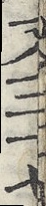文三七
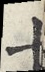七
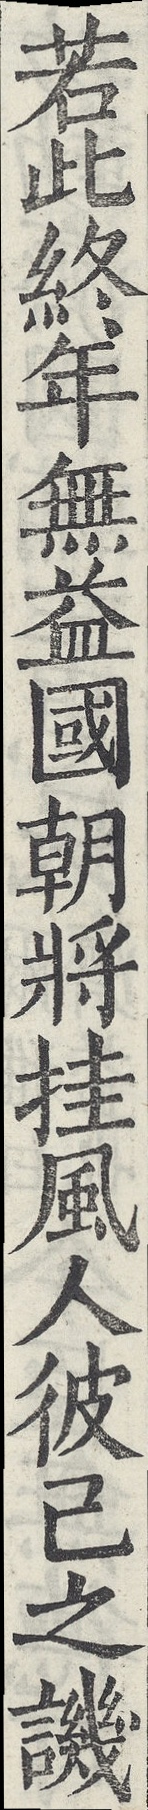若此終年無益國朝將挂風人彼己之譏
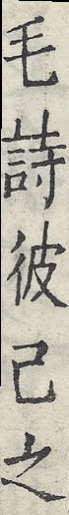毛詩彼己之
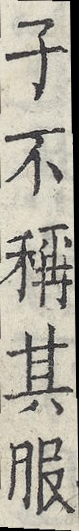子不稱其服
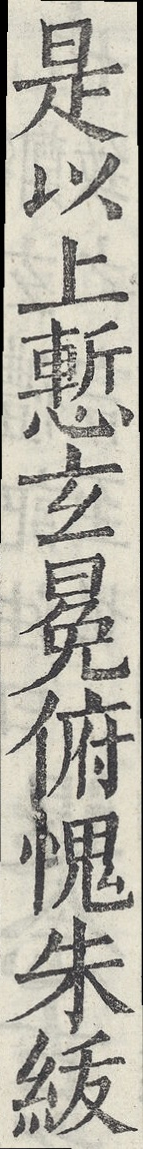是以上慙玄冕俯愧朱紱
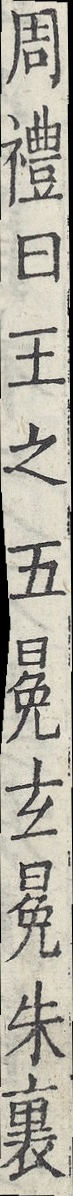周禮曰王之五冕玄冕朱裏
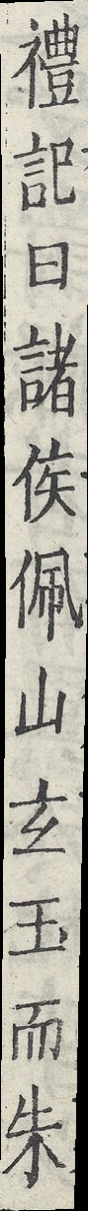禮記曰諸侯佩山玄玉而朱
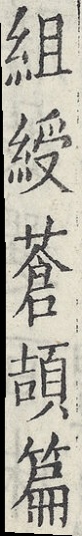組綬蒼頡篇
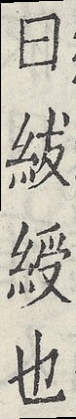曰紱綬也
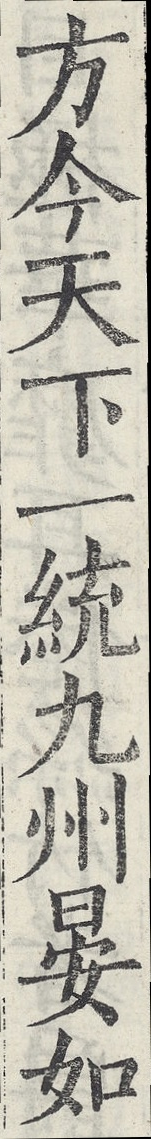方今天下一統九州晏如
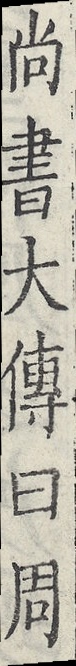尚書大傳曰周
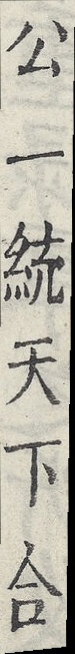公一統天下合
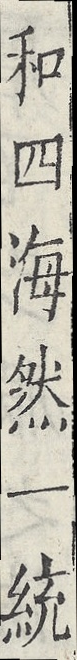和四海然一統
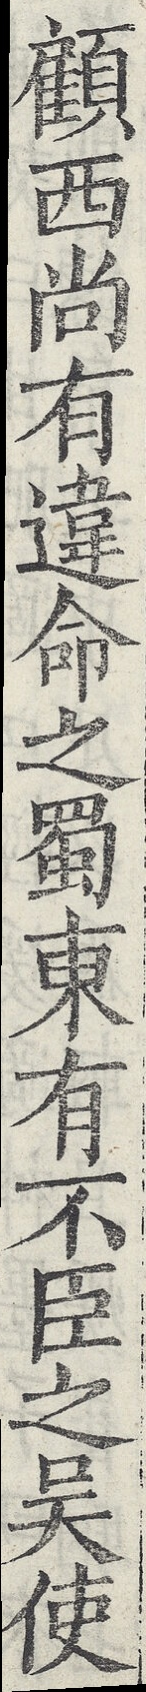顧西尚有違命之蜀東有不臣之吳使
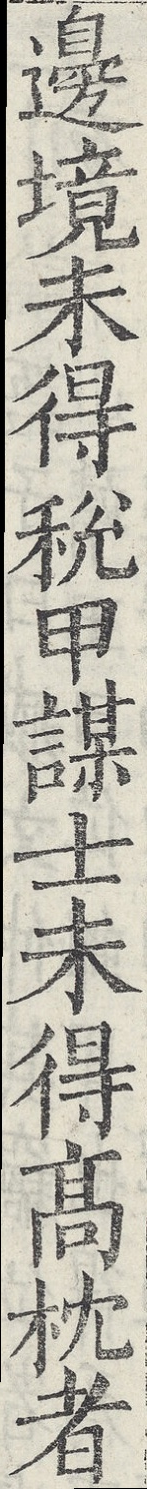邊境未得稅甲謀士未得高枕者
